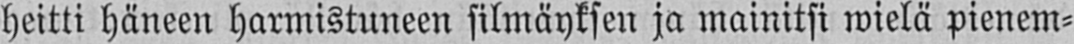heitti häneen harmistuneen silmäyksen ja mainitsi wielä pienem-
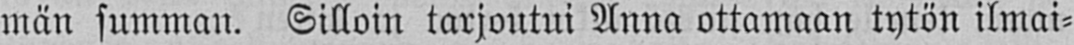män summan. Silloin tarjoutui Anna ottamaan tytön ilmai-
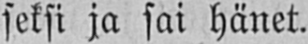seksi ja sai hänet.
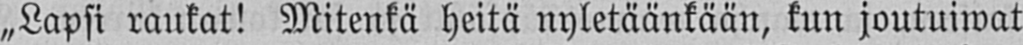„Lapsi raukat! Mitenkä heitä nyletäänkään, kun joutuiwat
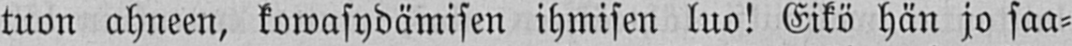tuon ahneen, kowasydämisen ihmisen luo! Eikö hän jo saa-
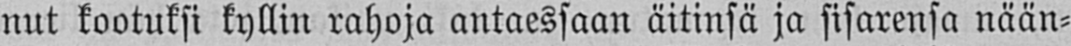nut kootuksi kyllin rahoja antaessaan äitinsä ja sisarensa nään-
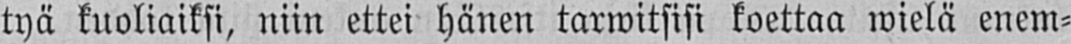tyä kuoliaiksi, niin ettei hänen tarwitsisi koettaa wielä enem-
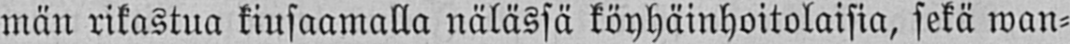män rikastua kiusaamalla nälässä köyhäinhoitolaisia, sekä wan-
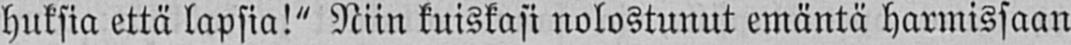huksia että lapsia!" Niin kuiskasi nolostunut emäntä harmissaan
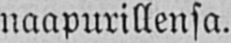naapurillensa.
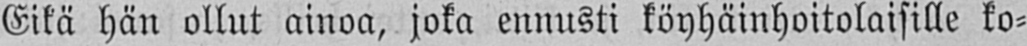Eikä hän ollut ainoa, joka ennusti köyhäinhoitolaisille ko-
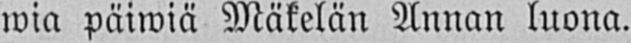wia päiwiä Mäkelän Annan luona.
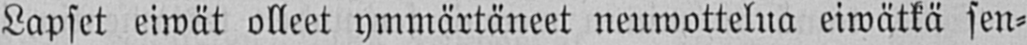Lapset eiwät olleet ymmärtäneet neuwottelua eiwätkä sen-
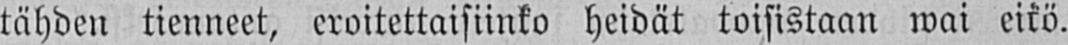tähden tienneet, eroitettaisiinko heidät toisistaan wai eikö.
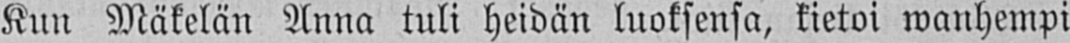Kun Mäkelän Anna tuli heidän luoksensa, kietoi wanhempi
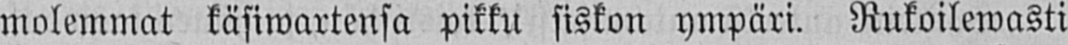molemmat käsiwartensa pikku siskon ympäri. Rukoilewasti
